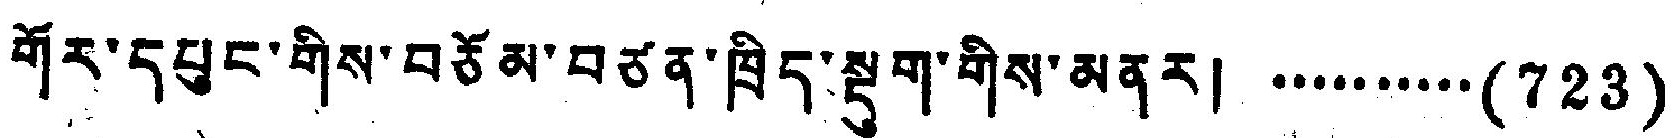གོར་དཔུང་གིས་བཅོམ་བཙན་ཁྲིད་སྡུག་གིས་མནར། ..........(733)
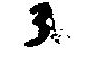3
